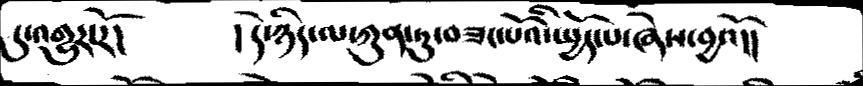དུ་འགྱུར་རོ།   །དེ་ཉིད་ལ་ཀུན་ཏུ་བཟང་པོའི་སྤྱོད་པ་ཞེས་བྱའོ།།
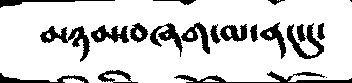མཉམ་བཞག་ལ་ནང་དུ་
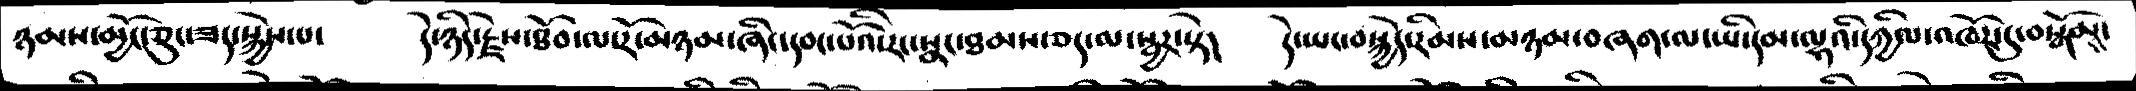ཉམས་མྱོང་ཅུང་ཟད་སྐྱེས་པ་   དེ་ཉིད་རྗེས་ཐོབ་ལ་རོ་མཉམ་ཞིང་དབང་པོའི་རང་སྣང་ཐམས་ཅད་ལ་སྦྱར་སྟེ།   དེ་ཡང་བསྐྱེད་རིམས་མཉམ་བཞག་ལ་ཡི་དམ་ལྷའི་དཀྱིལ་འཁོར་དུ་བསྒོམས་
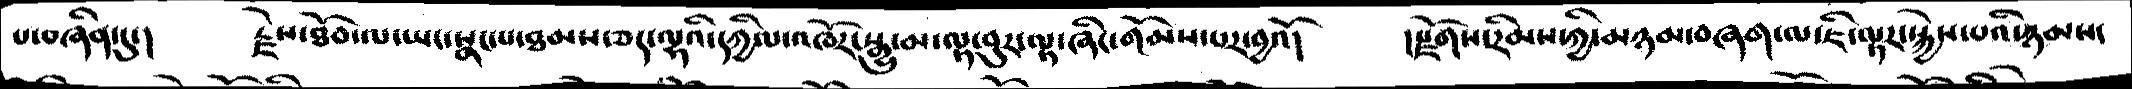པ་བཞིན་དུ་།    རྗེས་ཐོབ་ལ་ཡང་སྣང་པ་ཐམས་ཅད་ལྷའི་དཀྱིལ་འཁོར་སྒྱུ་མ་ལྟ་བུར་ལྟ་ཞིང་གོམས་པར་བྱའོ།   །རྫོགས་རིམས་ཀྱི་མཉམ་བཞག་ལ་ཇི་ལྟར་སྐྱེས་པའི་ཉམས་
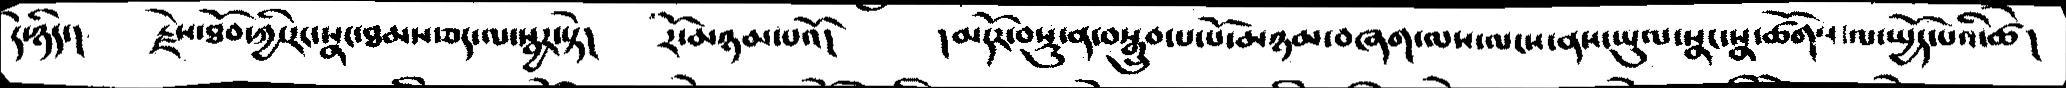དེ་ཉིད་།   རྗེས་ཐོབ་ཀྱི་རང་སྣང་ཐམས་ཅད་ལ་སྦྱར་སྟེ།   རོ་མཉམ་པའོ།    །མདོར་བསྡུ་ན་བསྒྲུབ་པ་པོ་མཉམ་བཞག་ལས་ལངས་ནས་ཡུལ་སྣང་སྣ་ཚོགས་ལ་སྤྱོད་པའི་ཚེ།
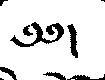༄༅།
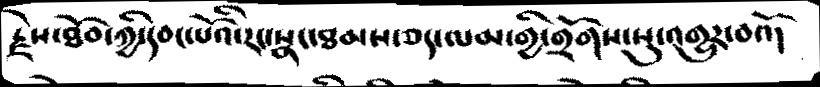རྗེས་ཐོབ་ཀྱི་དབང་པོའི་རང་སྣང་ཐམས་ཅད་ལམ་གྱི་གྲོགས་སུ་འགྱུར་བའོ།
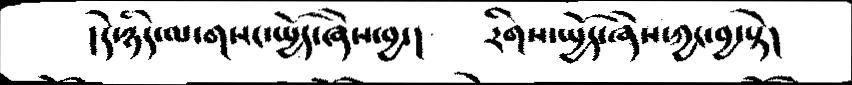།དེ་ཉིད་ལ་གསང་སྤྱོད་ཞེས་བྱ་།     རིགས་སྤྱོད་ཞེས་ཀྱང་བྱ་སྟེ།
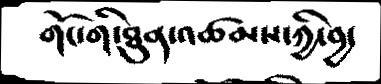གོང་གི་ཐུན་འཚམས་ཀྱི་བྱ་
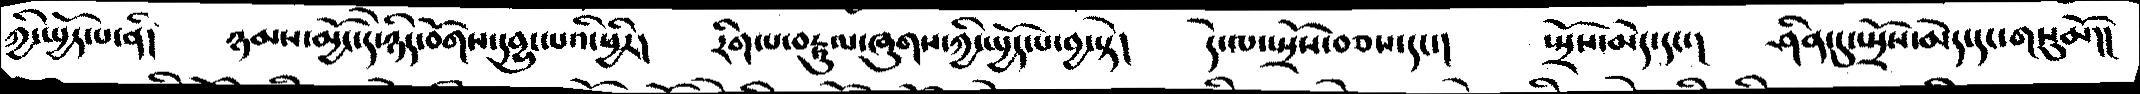ཀྱི་སྤྱོད་པ་ནི།   ཉམས་མྱོང་དེ་ཉིད་བོགས་དབྱུང་པའི་ཕྱིར།  རིག་པ་བརྟུལ་ཞུགས་ཀྱི་སྤྱོད་པ་བྱ་སྟེ།   དེ་ལ་སྤྲོས་བཅས་དང་།  སྤྲོས་མེད་དང་།  ཤིན་དུ་སྤྲོས་མེད་དང་གསུམོ།།
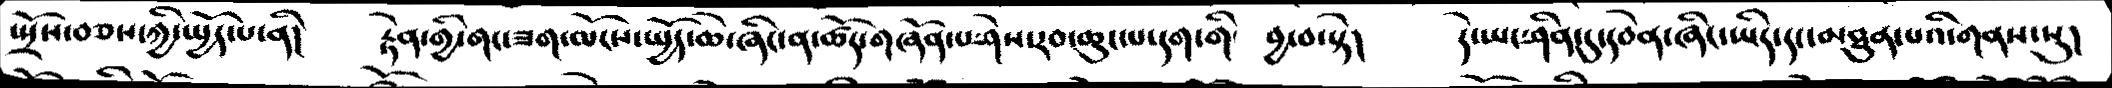སྤྲོས་བཅས་ཀྱི་སྤྱོད་པ་ནི།   རྟེན་གྱི་གང་ཟག་ལོངས་སྤྱོད་ཆེ་ཞིང་ན་ཚོད་གཞོན་པ་ཤེས་རབ་ཆུང་པ་དག་གི་ བྱ་བ་སྟེ།   དེ་ཡང་ཤིན་དུ་དབེན་ཞིང་ཡིད་དང་མཐུན་པའི་གནས་སུ།
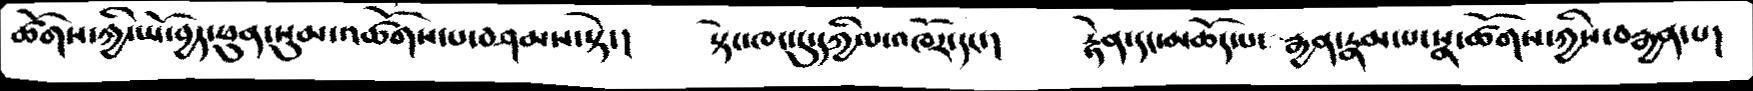ཚོགས་ཀྱི་ཡོ་བྱད་ཕུན་སུམ་འཚོགས་པ་བཤམས་སྟེ་།   སྟེང་ཁང་དུ་དཀྱིལ་འཁོར་དང་།   རྟེན་དང་མཆོད་པ་ རྒྱན་རྣམ་པ་སྣ་ཚོགས་ཀྱིས་བརྒྱན་པ།
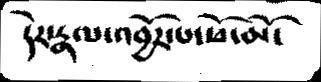དེར་རྣལ་འབྱོར་པ་ཕོ་མོ་
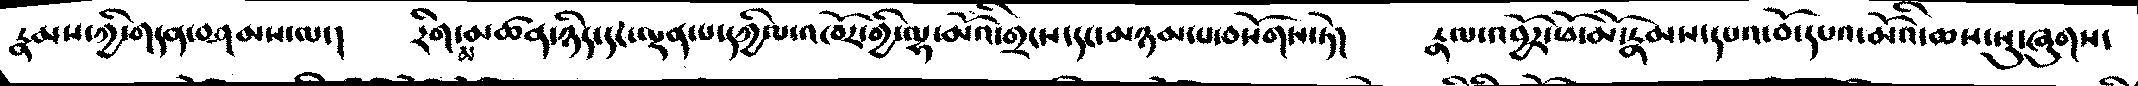རྣམས་ཀྱི་གདན་བཤམས་ལ་།   རིག་མ་མཚན་ཉིད་དང་ལྡན་པ་དཀྱིལ་འཁོར་གྱི་ལྷ་མོའི་གྲངས་དང་མཉམ་པ་བསོགས་ཏེ།   རྣལ་འབྱོར་ཕོ་མོ་རྣམས་དཔའ་བོ་དཔའ་མོའི་ཆས་སུ་ཞུགས་
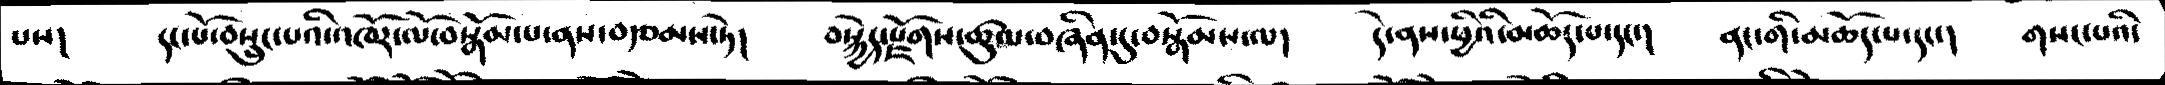པས།   དང་པོ་བསྲུངས་པའི་འཁོར་ལོ་བསྒོམ་པ་ནས་བརྩམས་ཏེ།   བསྐྱེད་རྫོགས་ཚུལ་བཞིན་དུ་བསྒོམས་ལ།   དེ་ནས་ཕྱིའི་མཆོད་པ་དང་།   ནང་གི་མཆོད་པ་དང་།   གསང་པའི་
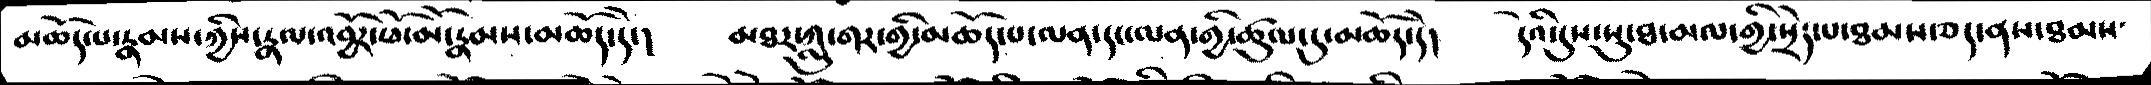མཆོད་པ་རྣམས་ཀྱིས་རྣལ་འབྱོར་ཕོ་མོ་རྣམས་མཆོད་དེ་།  མཐར་ཀླུ་གར་གྱི་མཆོད་པ་ལན་དང་ལན་གྱི་ཚུལ་དུ་མཆོད་དེ།  དེའི་དུས་སུ་ཐ་མལ་གྱི་སྲེད་པ་ཐམས་ཅད་ནས་ཐམས་
